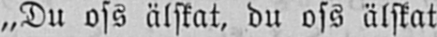„Du oss älskat, du oss älskat
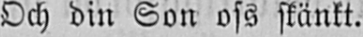Och din Son oss skänkt.
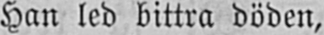Han led bittra döden,
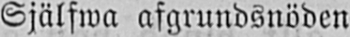Själfwa afgrundsnöden
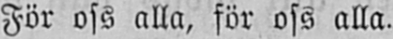För oss alla, för oss alla.
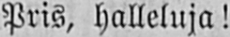Pris, halleluja!
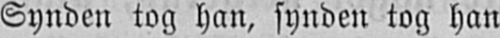Synden tog han, synden tog han
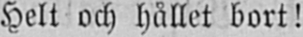Helt och hållet bort!
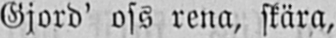Gjord' oss rena, skära,
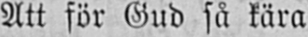Att för Gud få kära
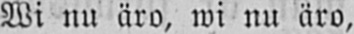Wi nu äro, wi nu äro,
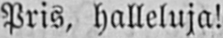Pris, halleluja!
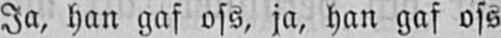Ja, han gaf oss, ja, han gaf oss
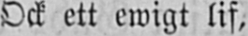Ock ett ewigt lif.
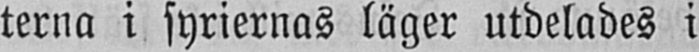terna i syriernas läger utdelades i
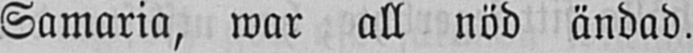Samaria, war all nöd ändad.
